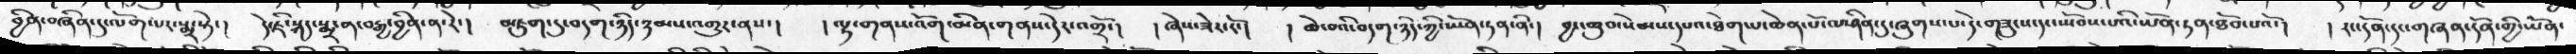བྱིན་བཞིན་དུ་ལོག་པར་སྨྲ་སྟེ་།  དེ་ཇི་སྐད་སྨྲ་ན་བརྒྱ་བྱིན་ན་རེ་།  མཇུག་དུ་བདག་ཉིད་ཉམས་འགྱུར་ནས་།  ། ལྷ་གནས་འོག་མིན་གནས་དེར་འགྲོ་།  ། ཞེས་ཟེར་རོ་།   ། ཆེ་བའི་བདག་ཉིད་ཀྱི་ཡོན་ཏན་ནི་།  བྱང་ཆུབ་སེམས་དཔའ་ཐེག་པ་ཆེན་པོ་ལ་ཤིན་དུ་ཞུགས་པ་དེ་གཟུངས་དང་སྤོབས་པའི་ཡོན་ཏན་ཐོབ་པའོ་།་  ། རང་དོན་དང་གཞན་དོན་གྱི་ཡོན་
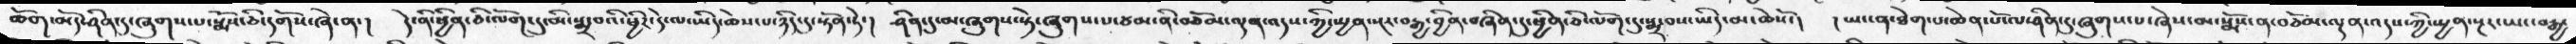ཆོག་མོད་ཤིན་དུ་ཞུགས་པ་སྨོས་ཅི་དགོས་ཞེ་ན་།  དེ་ནི་ཕྱིན་ཅི་ལོག་དུ་མི་སྨྲ་བའི་ཕྱིར་དེ་ལ་ཡིད་ཆེས་པ་ཉིད་དུ་སྟོན་ཏེ་།  ཤིན་དུ་མ་ཞུགས་སྟེ་ཞུགས་པ་ཙམ་ནི་བཅོམ་ལྡན་འདས་ཀྱི་སྤྱན་སྔར་བརྒྱ་བྱིན་བཞིན་དུ་ཕྱིན་ཅི་ལོག་དུ་སྨྲ་བས་ཡིད་མ་ཆེསོ་།  །ཡང་ན་ཐེག་པ་ཆེན་པོ་ལ་ཤིན་དུ་ཞུགས་པ་ཞེས་མ་སྨོས་ན་བཅོམ་ལྡན་འདས་ཀྱི་སྤྱན་སྔར་ཡང་བརྒྱ
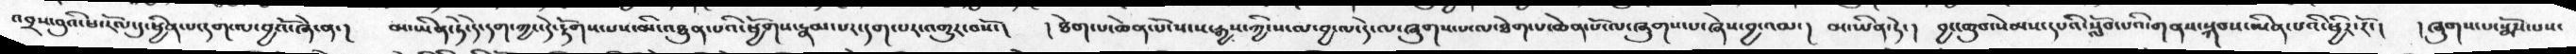འབྲས་བུའི་ཕ་རོལ་དུ་ཕྱིན་པ་དག་ལ་བྱའོ་ཞེ་ན་།  མ་ཡིན་ཏེ་དེ་དག་ཀྱང་དེ་རྟོགས་པས་མི་འཐུན་པའི་ཕྱོགས་རྣམ་པར་དག་པར་འགྱུར་བསོ་།  །ཐེག་པ་ཆེན་པོ་སངས་རྒྱས་ཀྱི་ས་ལ་བྱ་ལ་དེ་ལ་ཞུགས་པ་ལ་ཐེག་པ་ཆེན་པོ་ལ་ཞུགས་པ་ཞེས་བྱ་འམ་།  མ་ཡིན་ཏེ་།  བྱང་ཆུབ་སེམས་དཔའི་སློབ་པའི་གནས་སྐབས་ཡིན་པའི་ཕྱིར་རོ་།  །ཞུགས་པ་སྨོས་པས་
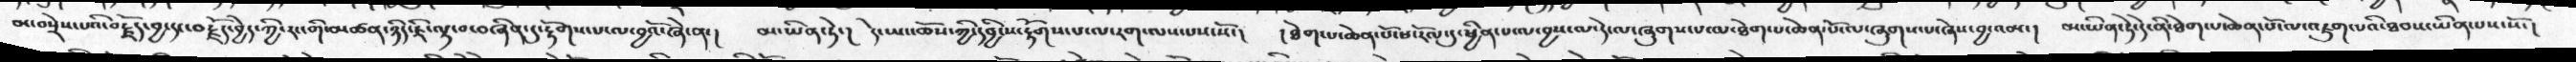མ་བསྲེས་པའི་བརྗོད་བྱ་དང་བརྗོད་བྱེད་ཀྱི་རང་གི་མཚན་ཉིད་ཇི་ལྟ་བ་བཞིན་དུ་རྟོགས་པ་ལ་བྱའོ་ཞེ་ན་།  མ་ཡིན་ཏེ་།  དེ་ཡང་ཆོས་ཀྱི་དབྱིངས་རྟོགས་པ་ལ་རག་ལས་པས་སོ་།  ཐེག་པ་ཆེན་པོ་ཕ་རོལ་དུ་ཕྱིན་པ་ལ་བྱས་ལ་དེ་ལ་ཞུགས་པ་ལ་ཐེག་པ་ཆེན་པོ་ལ་ཞུགས་པ་ཞེས་བྱ་འམ་།  མ་ཡིན་ཏེ་དེ་ནི་ཐེག་པ་ཆེན་པོ་ལ་འཇུག་པའི་ཐབས་ཡིན་པས་སོ་།
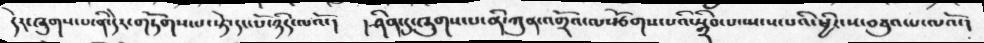དེར་ཞུགས་པ་ནི་དེར་གཏོགས་པ་སྟེ་དང་པོ་ཉིད་ལའོ་།  །ཤིན་དུ་ཞུགས་པ་ནི་ཀུན་འགྲོའ་ལསྩོགས་པའི་སྒྲིབ་པ་སྤངས་པའི་ཕྱིར་ས་བཅུའ་པ་ལའོ་།
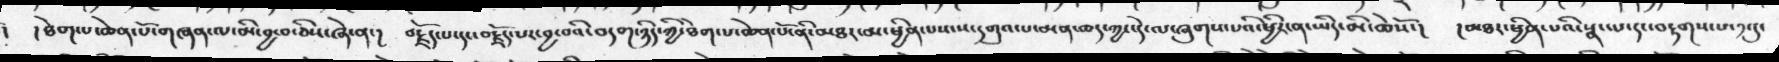།   །ཐེག་པ་ཆེན་པོ་གཞན་ལ་མི་བྱ་བ་ཅིས་ཞེ་ན་།  བརྗོད་པ་དང་བརྗོད་པར་བྱ་བའི་བདག་ཉིད་ཀྱི་ཐེག་པ་ཆེན་པོ་ནི་མཐར་མ་ཕྱིན་པས་ས་དགུའ་པ་མན་ཆད་ཀྱང་དེ་ལ་ཞུགས་པའི་ཕྱིར་ན་ཡིད་མི་ཆེསོ་།   །མཐར་ཕྱིན་པའི་སྣང་པ་དང་བརྟགས་པ་༡་དུ་
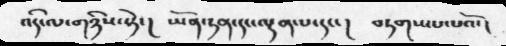འདི་ལ་གཉིས་སྟེ་།  ཡོན་ཏན་དང་ལྡན་པ་དང་།  བཏགས་པ་པའོ་།
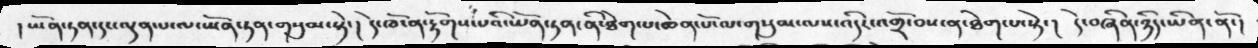། ཡོན་ཏན་དང་ལྡན་པ་ལ་ཡོན་ཏན་གསུམ་སྟེ་།  དེ་ཁོ་ན་རྟོགས་པའི་ཡོན་ཏན་ནི་ཐེག་པ་ཆེན་པོ་ལ་གསུམ་ལས་འདིར་འགྲོ་བས་ན་ཐེག་པ་སྟེ་།  དེ་བཞིན་ཉིད་ཡིན་ནོ་།
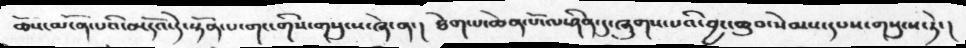ཆོས་མངོན་པའི་མདོའ་དེ་སྟོན་པ་གང་གིས་གསུངས་ཞེ་ན་།  ཐེག་པ་ཆེན་པོ་ལ་ཤིན་དུ་ཞུགས་པའི་བྱང་ཆུབ་སེམས་དཔས་གསུངས་ཏེ་།
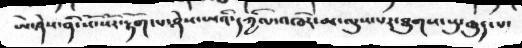ཡེ་ཤེས་ནི་སོ་སོར་རྟོག་པ་ཤེས་པའི་དཀྱིལ་འཁོར་མ་ལུས་པར་ཐུགས་སུ་ཆུད་པ་
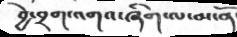བྱེ་བྲག་འགའ་ཞིག་ལ་མ་ནོ་
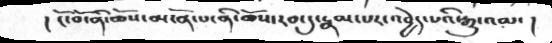། ངོ་བོ་ནི་ཆོས་མངོན་པ་ནི་ཆོས་རབ་དུ་རྣམ་པར་འབྱེད་པའི་རྒྱུ་འམ་།
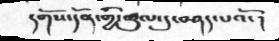དགོས་དོན་གྱི་ཚུལ་དུ་བཤད་པའོ་།
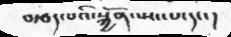བརྩད་པའི་སྐྱོན་སྤང་པ་དང་།
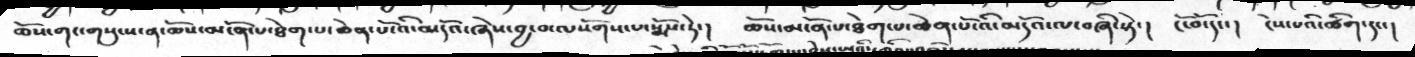ཆོས་གང་གསུངས་ན་ཆོས་མངོན་པ་ཐེག་པ་ཆེན་པོ་འི་མདོའ་ཞེས་བྱ་བ་ལསོགས་པ་སྨོས་ཏེ་།  ཆོས་མངོན་པ་ཐེག་པ་ཆེན་པོ་འི་མདོའ་ལ་བཞི་སྟེ་།  ངོ་བོ་དང་།  ངེས་པའི་ཚིག་དང་།
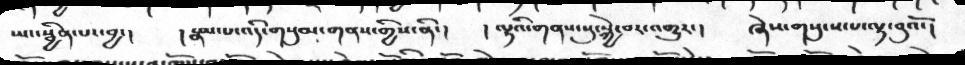ཡང་སྦྱིན་པར་བྱ་།   །རྣམ་པ་འདི་གསུམ་གནས་གྱིས་ནི་།  །ལྷའི་གནས་སུ་སྐྱེ་བར་འགྱུར་།  ཞེས་གསུངས་པ་ལྟ་བུའོ་།
